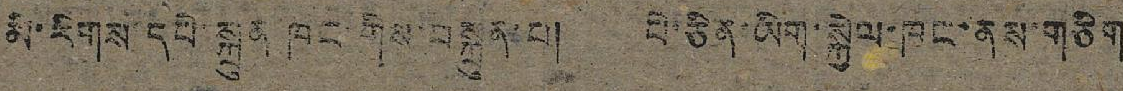མི་རིགས་དཔེ་སྐྲུན ཁང གིས་བསྐྲུན་པ། པེ་ཅིན་ཡིག་སྐྱེལ་ཁང་ནས་གཅིག
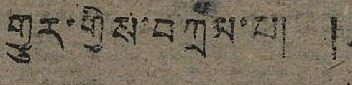གྱུར་གྱིས་བཀྲམ་པ། །
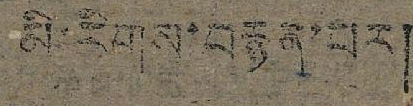མི་རིགས་བརྙན་པར།
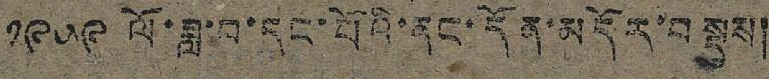༡༩༥༩ ལོ་ཟླ་བ་དང་པོའི་ནང་དོན་མདོར་བསྡུས།
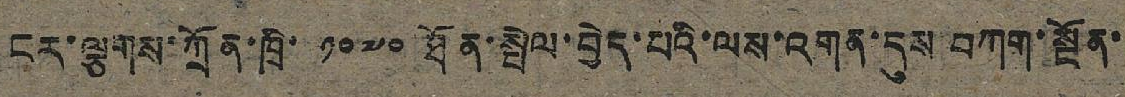ངར་ལྕགས་ཀྲོན་ཁྲི་ ༡༠༧༠ ཐོན་སྤེལ་བྱེད་པའི་ལས་འགན་དུས བཀག་སྔོན་
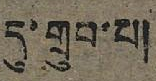དུ་གྲུབ་པ།
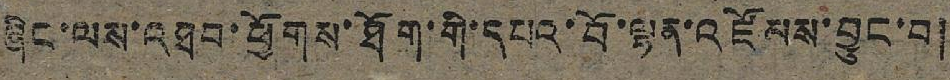ཞིང་ལས་འཐབ་ཕྱོགས་ཐོག་གི་དཔའ་བོ་ལྷན་འཛོམས་བྱུང་བ།
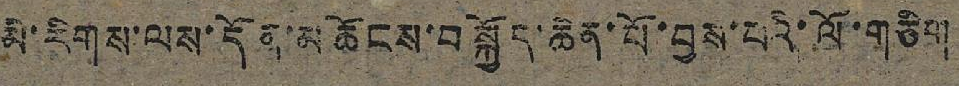མི་རིགས་ལས་དོན་མཆོངས་བསྐྱོད་ཆེན་པོ་བྱས་པའི་ལོ་གཅིག
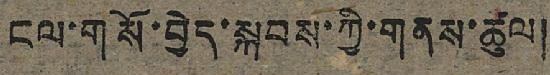ངལ་གསོ་བྱེད་སྐབས་ཀྱི་གནས་ཚུལ།
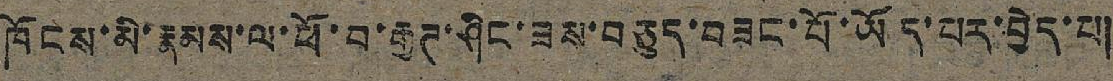ཁོངས་མི་རྣམས་ལ་ཕོ་བ་རྒྱཊ་ཤིང་ཟས་བཅུད་བཟང་པོ་ཡོད་པར་བྱེད་པ།
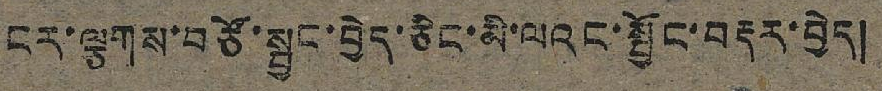ངར་ལྕགས་བཙོ་སྦྱང་བྱེད་ཅིང་མི་ལའང་སྦྱོང་བརྡར་བྱེད།
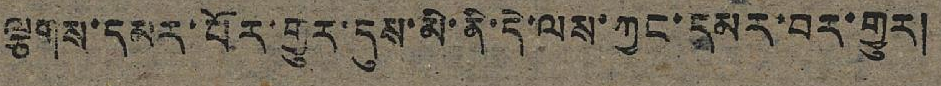ལྕགས་དམར་པོར་གྱུར་དུས་མི་ནི་དེ་ལས་ཀྱང་དམར་བར་གྱུར།
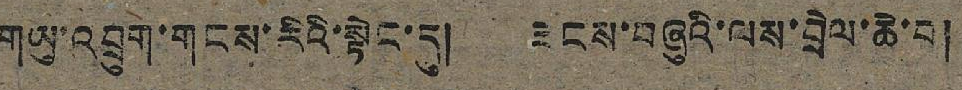གཡུ་འབྲུག་གངས་རིའི་སྟེང་དུ། ཟངས་བཞུའི་ལས་བྲེལ་ཆེ་བ།
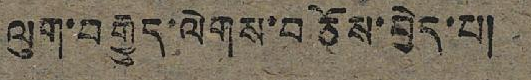ལུག་བརྒྱུད་ལེགས་བཅོས་བྱེད་པ།
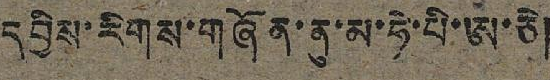དབྱིས་རིགས་གཞོན་ནུ་མ་ཧེ་པི་ཨ་ཅེ།
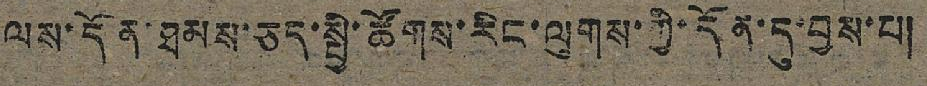ལས་དོན་ཐམས་ཅད་སྤྱི་ཚོགས་རིང་ལུགས་ཀྱི་དོན་དུ་བྱས་པ།
